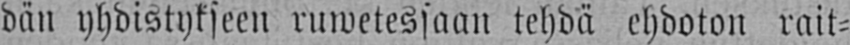dän yhdistykseen ruwetessaan tehdä ehdoton rait-
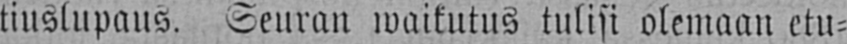tiuslupaus. Seuran waikutus tulisi olemaan etu-
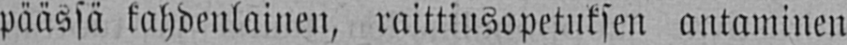päässä kahdenlainen, raittiusopetuksen antaminen
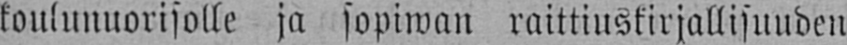koulunuorisolle ja sopiwan raittiuskirjallisuuden
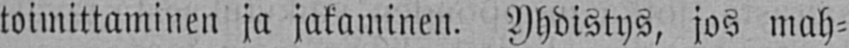toimittaminen ja jakaminen. Yhdistys, jos mah-
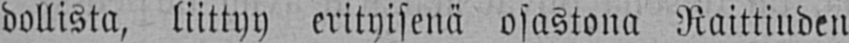dollista, liittyy erityisenä osastona Raittiuden
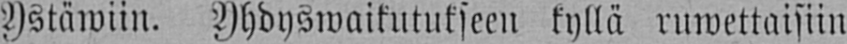Ystäwiin. Yhdyswaikutukseen kyllä ruwettaisiin
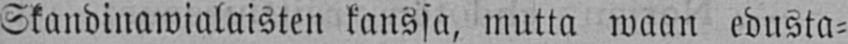Skandinawialaisten kanssa, mutta waan edusta-
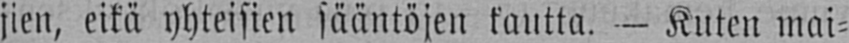jien, eikä yhteisien sääntöjen kautta. — Kuten mai-
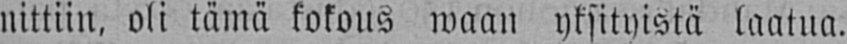nittiin, oli tämä kokous waan yksityistä laatua.
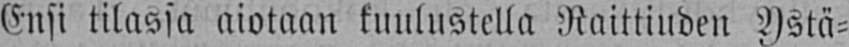Ensi tilassa aiotaan kuulustella Raittiuden Ystä-
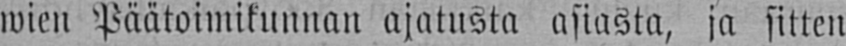wien Päätoimikunnan ajatusta asiasta, ja sitten
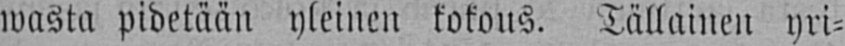wasta pidetään yleinen kokous. Tällainen yri-
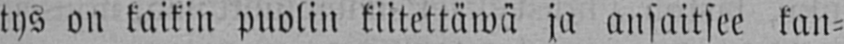tys on kaikin puolin kiitettäwä ja ansaitsee kan-
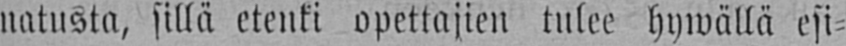natusta, sillä etenki opettajien tulee hywällä esi-
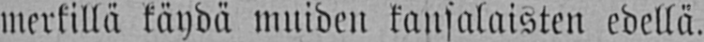merkillä käydä muiden kansalaisten edellä.
